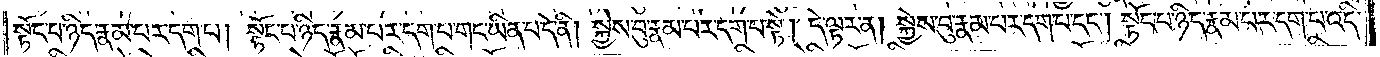སྟོང་པ་ཉིད་རྣམ་པར་དག་པ། སྟོང་པ་ཉིད་རྣམ་པར་དག་པ་གང་ཡིན་པ་དེ་ནི། སྐྱེས་བུ་རྣམ་པར་དག་པ་སྟེ། དེ་ལྟར་ན། སྐྱེས་བུ་རྣམ་པར་དག་པ་དང༌། སྟོང་པ་ཉིད་རྣམ་པར་དག་པ་འདི་
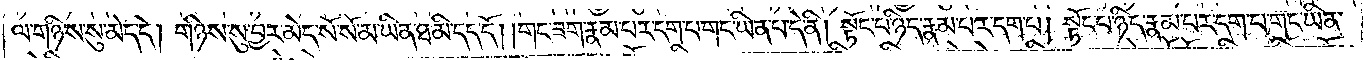ལ་གཉིས་སུ་མེད་དེ། གཉིས་སུ་བྱར་མེད་སོ་སོ་མ་ཡིན་ཐ་མི་དད། གང་ཟག་རྣམ་པར་དག་པ་གང་ཡིན་པ་དེ་ནི། སྟོང་པ་ཉིད་རྣམ་པར་དག་པ། སྟོང་པ་ཉིད་རྣམ་པར་དག་པ་གང་ཡིན་
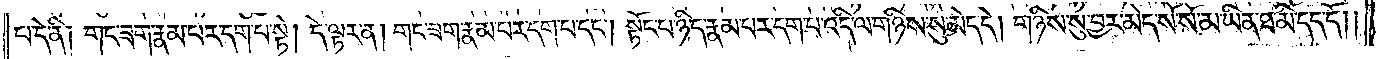པ་དེ་ནི། གང་ཟག་རྣམ་པར་དག་པ་སྟེ། དེ་ལྟར་ན། གང་ཟག་རྣམ་པར་དག་པ་དང༌། སྟོང་པ་ཉིད་རྣམ་པར་དག་པ་འདི་ལ་གཉིས་སུ་མེད་དེ། གཉིས་སུ་བྱར་མེད་སོ་སོ་མ་ཡིན་ཐ་མི་དད་དོ། །
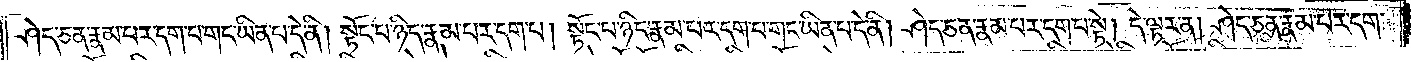ཤེད་ཅན་རྣམ་པར་དག་པ་གང་ཡིན་པ་དེ་ནི། སྟོང་པ་ཉིད་རྣམ་པར་དག་པ། སྟོང་པ་ཉིད་རྣམ་པར་དག་པ་གང་ཡིན་པ་དེ་ནི། ཤེད་ཅན་རྣམ་པར་དག་པ་སྟེ། དེ་ལྟར་ན། ཤེད་ཅན་རྣམ་པར་དག་
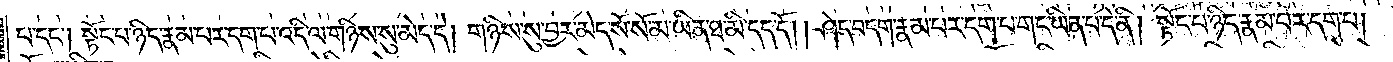པ་དང༌། སྟོང་པ་ཉིད་རྣམ་པར་དག་པ་འདི་ལ་གཉིས་སུ་མེད་དེ། གཉིས་སུ་བྱར་མེད་སོ་སོ་མ་ཡིན་ཐ་མི་དད་དོ། །ཤེད་བདག་རྣམ་པར་དག་པ་གང་ཡིན་པ་དེ་ནི། སྟོང་པ་ཉིད་རྣམ་པར་དག་པ།
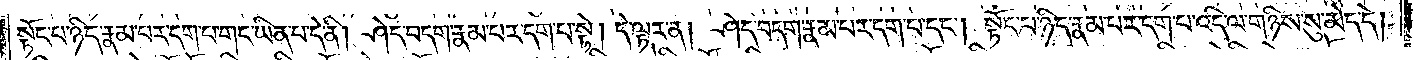སྟོང་པ་ཉིད་རྣམ་པར་དག་པ་གང་ཡིན་པ་དེ་ནི། ཤེད་བདག་རྣམ་པར་དག་པ་སྟེ། དེ་ལྟར་ན། ཤེད་བདག་རྣམ་པར་དག་པ་དང༌། སྟོང་པ་ཉིད་རྣམ་པར་དག་པ་འདི་ལ་གཉིས་སུ་མེད་དེ།
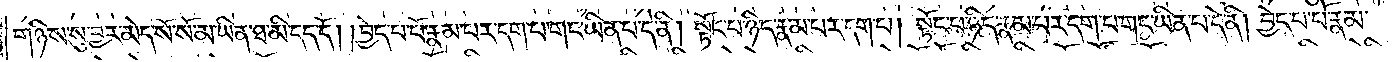གཉིས་སུ་བྱར་མེད་སོ་སོ་མ་ཡིན་ཐ་མི་དད་དོ། །བྱེད་པ་པོ་རྣམ་པར་དག་པ་གང་ཡིན་པ་དེ་ནི། སྟོང་པ་ཉིད་རྣམ་པར་དག་པ། སྟོང་པ་ཉིད་རྣམ་པར་དག་པ་གང་ཡིན་པ་དེ་ནི། བྱེད་པ་པོ་རྣམ་པར་
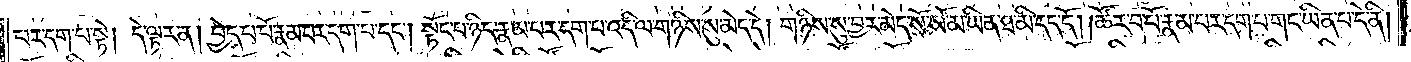དག་པ་སྟེ། དེ་ལྟར་ན། བྱེད་པ་པོ་རྣམ་པར་དག་པ་དང༌། སྟོང་པ་ཉིད་རྣམ་པར་དག་པ་འདི་ལ་གཉིས་སུ་མེད་དེ། གཉིས་སུ་བྱར་མེད་སོ་སོ་མ་ཡིན་ཐ་མི་དད་དོ། །ཚོར་བ་པོ་རྣམ་པར་དག་པ་གང་ཡིན་པ་དེ་ནི།
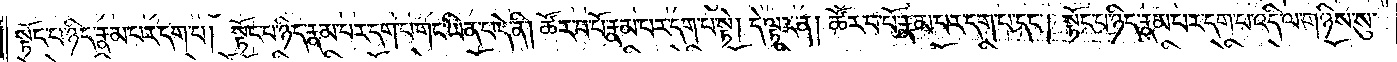སྟོང་པ་ཉིད་རྣམ་པར་དག་པ། སྟོང་པ་ཉིད་རྣམ་པར་དག་པ་གང་ཡིན་པ་དེ་ནི། ཚོར་བ་པོ་རྣམ་པར་དག་པ་སྟེ། དེ་ལྟར་ན། ཚོར་བ་པོ་རྣམ་པར་དག་པ་དང༌། སྟོང་པ་ཉིད་རྣམ་པར་དག་པ་འདི་ལ་གཉིས་སུ་
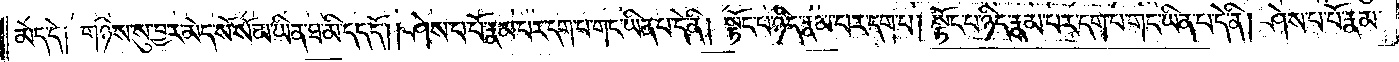མེད་དེ། གཉིས་སུ་བྱར་མེད་སོ་སོ་མ་ཡིན་ཐ་མི་དད་དོ། །ཤེས་པ་པོ་རྣམ་པར་དག་པ་གང་ཡིན་པ་དེ་ནི། སྟོང་པ་ཉིད་རྣམ་པར་དག་པ། སྟོང་པ་ཉིད་རྣམ་པར་དག་པ་གང་ཡིན་པ་དེ་ནི། ཤེས་པ་པོ་རྣམ་
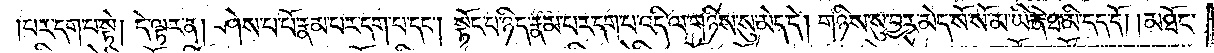པར་དག་པ་སྟེ། དེ་ལྟར་ན། ཤེས་པ་པོ་རྣམ་པར་དག་པ་དང༌། སྟོང་པ་ཉིད་རྣམ་པར་དག་པ་འདི་ལ་གཉིས་སུ་མེད་དེ། གཉིས་སུ་བྱར་མེད་སོ་སོ་མ་ཡིན་ཐ་མི་དད་དོ། །མཐོང་
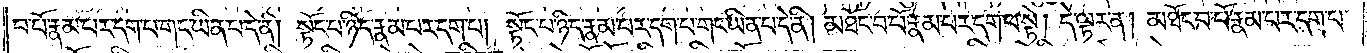བ་པོ་རྣམ་པར་དག་པ་གང་ཡིན་པ་དེ་ནི། སྟོང་པ་ཉིད་རྣམ་པར་དག་པ། སྟོང་པ་ཉིད་རྣམ་པར་དག་པ་གང་ཡིན་པ་དེ་ནི། མཐོང་བ་པོ་རྣམ་པར་དག་པ་སྟེ། དེ་ལྟར་ན། མཐོང་བ་པོ་རྣམ་པར་དག་པ་
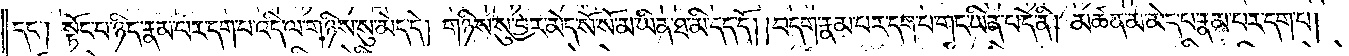དང༌། སྟོང་པ་ཉིད་རྣམ་པར་དག་པ་འདི་ལ་གཉིས་སུ་མེད་དེ། གཉིས་སུ་བྱར་མེད་སོ་སོ་མ་ཡིན་ཐ་མི་དད་དོ། །བདག་རྣམ་པར་དག་པ་གང་ཡིན་པ་དེ་ནི། མཚན་མ་མེད་པ་རྣམ་པར་དག་པ།
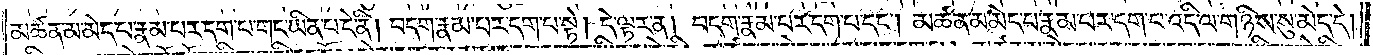མཚན་མ་མེད་པ་རྣམ་པར་དག་པ་གང་ཡིན་པ་དེ་ནི། བདག་རྣམ་པར་དག་པ་སྟེ། དེ་ལྟར་ན། བདག་རྣམ་པར་དག་པ་དང༌། མཚན་མ་མེད་པ་རྣམ་པར་དག་པ་འདི་ལ་གཉིས་སུ་མེད་དེ།
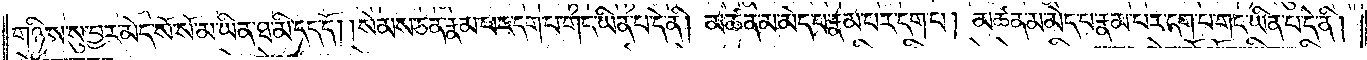གཉིས་སུ་བྱར་མེད་སོ་སོ་མ་ཡིན་ཐ་མི་དད་དོ། །སེམས་ཅན་རྣམ་པར་དག་པ་གང་ཡིན་པ་དེ་ནི། མཚན་མ་མེད་པ་རྣམ་པར་དག་པ། མཚན་མ་མེད་པ་རྣམ་པར་དག་པ་གང་ཡིན་པ་དེ་ནི།
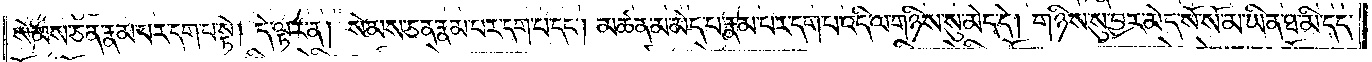སེམས་ཅན་རྣམ་པར་དག་པ་སྟེ། དེ་ལྟ་ན། སེམས་ཅན་རྣམ་པར་དག་པ་དང༌། མཚན་མ་མེད་པ་རྣམ་པར་དག་པ་འདི་ལ་གཉིས་སུ་མེད་དེ། གཉིས་སུ་བྱར་མེད་སོ་སོ་མ་ཡིན་ཐ་མི་དད་
